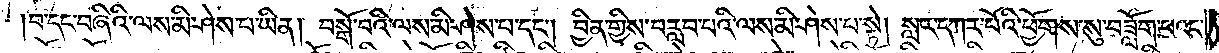བ་དང་བཞིའི་ལས་མི་ཤེས་པ་ཡིན། བསྒོ་བའི་ལས་མི་ཤེས་པ་དང༌། བྱིན་གྱིས་བརླབ་པའི་ལས་མི་ཤེས་པ་སྟེ། སླར་དཀར་པོའི་ཕྱོགས་སུ་བཟློག་པའང་
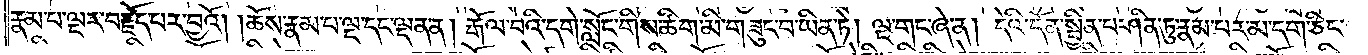རྣམ་པ་ལྔར་བརྗོད་པར་བྱའོ། །ཆོས་རྣམ་པ་ལྔ་དང་ལྡན་ན། རྒོལ་བའི་དགེ་སློང་གིས་ཚིག་མི་གཟུང་བ་ཡིན་ཏེ། ལྔ་གང་ཞེ་ན། དེའི་དོན་སྦྱིན་པ་ཤིན་ཏུ་རྣམ་པར་མ་དག་ཅིང་
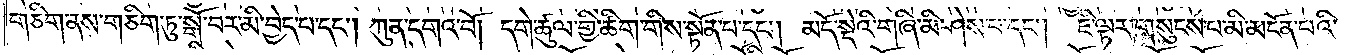གཅིག་ནས་གཅིག་ཏུ་སྒོ་བར་མི་བྱེད་པ་དང༌། ཀུན་དགའ་བོ། དགེ་ཚུལ་གྱི་ཚིག་གིས་སྟོན་པ་དང༌། མདོ་སྡེའི་གཞི་མི་ཤེས་པ་དང༌། ཇི་ལྟར་གསུངས་པ་མི་མངོན་པའི་
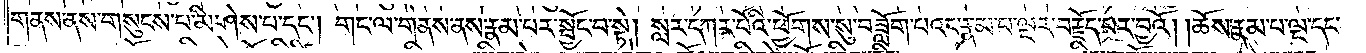གནས་ནས་གསུངས་པ་མི་ཤེས་པ་དང༌། གང་ལ་གནས་ནས་རྣམ་པར་སྦྱོང་བ་སྟེ། སླར་དཀར་པོའི་ཕྱོགས་སུ་བཟློག་པའང་རྣམ་པ་ལྔར་བརྗོད་པར་བྱའོ། །ཆོས་རྣམ་པ་ལྔ་དང་
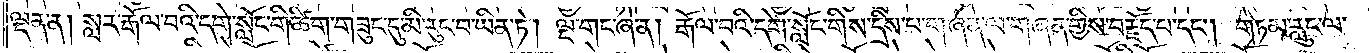ལྡན་ན། སླར་རྒོལ་བའི་དགེ་སློང་གི་ཚིག་གཟུང་དུ་མི་རུང་བ་ཡིན་ཏེ། ལྔ་གང་ཞེ་ན། རྒོལ་བའི་དགེ་སློང་གིས་དྲིས་པ་གཞན་ལ་གཞན་གྱིས་བརྗོད་པ་དང༌། གཏམ་རླུང་ལ་
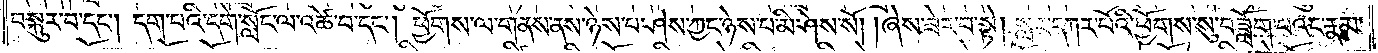བསྐུར་བ་དང༌། དག་པའི་དགེ་སློང་ལ་འཚེ་བ་དང༌། ཕྱོགས་ལ་གནས་ནས་ཉེས་པ་ཤེས་ཀྱང་ཉེས་པ་མི་ཤེས་སོ། །ཞེས་ཟེར་བ་སྟེ། སླར་དཀར་པོའི་ཕྱོགས་སུ་བཟློག་པའང་རྣམ་
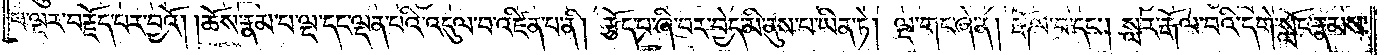པ་ལྔར་བརྗོད་པར་བྱའོ། །ཆོས་རྣམ་པ་ལྔ་དང་ལྡན་པའི་འདུལ་བ་འཛིན་པ་ནི། རྩོད་པ་ཞི་བར་བྱེད་མི་ནུས་པ་ཡིན་ཏེ། ལྔ་གང་ཞེ་ན། རྒོལ་བ་དང༌། སླར་རྒོལ་བའི་དགེ་སློང་རྣམས་
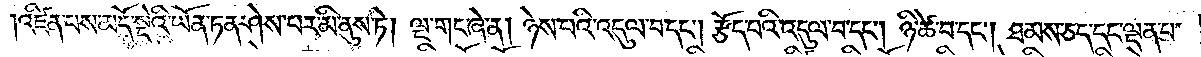འཛིན་པས་མདོ་སྡེའི་ཡོན་ཏན་ཤེས་པར་མི་ནུས་ཏེ། ལྔ་གང་ཞེ་ན། ཉེས་པའི་འདུལ་བ་དང༌། རྩོད་པའི་འདུལ་བ་དང༌། ཉི་ཚེ་བ་དང༌། ཐམས་ཅད་དང་ལྡན་པ་
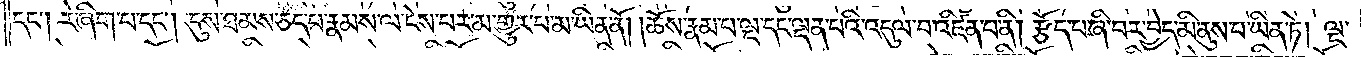དང༌། རེ་ཞིག་པ་དང༌། དུས་ཐམས་ཅད་པ་རྣམས་ལ་ངེས་པར་མ་གྱུར་པ་ཡིན་ནོ། །ཆོས་རྣམ་པ་ལྔ་དང་ལྡན་པའི་འདུལ་བ་འཛིན་པ་ནི། རྩོད་པ་ཞི་བར་བྱེད་མི་ནུས་པ་ཡིན་ཏེ། ལྔ་
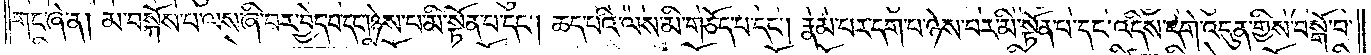གང་ཞེ་ན། མ་བསྐོས་པ་ལས་ཞི་བར་བྱེད་པ་དང༌། ཉེས་པ་མི་སྟོན་པ་དང༌། ཆད་པའི་ལས་མི་གཅོད་པ་དང༌། རྣམ་པར་དག་པ་ཉེས་པར་མི་སྟོན་པ་དང་འདིས་དགེ་འདུན་གྱིས་བསྒོ་བ་
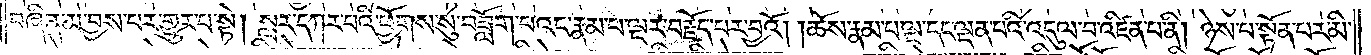བཞིན་མ་བྱས་པར་གྱུར་པ་སྟེ། སླར་དཀར་པའི་ཕྱོགས་སུ་བཟློག་པའང་རྣམ་པ་ལྔར་བརྗོད་པར་བྱའོ། །ཆོས་རྣམ་པ་ལྔ་དང་ལྡན་པའི་འདུལ་བ་འཛིན་པ་ནི། ཉེས་པ་སྟོན་པར་མི་
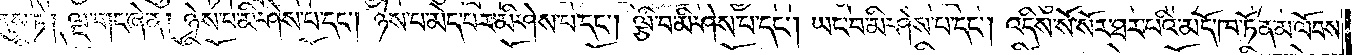ནུས་ཏེ། ལྔ་གང་ཞེ་ན། ཉེས་པ་མི་ཤེས་པ་དང༌། ཉེས་པ་མེད་པར་མི་ཤེས་པ་དང༌། ལྕི་བ་མི་ཤེས་པ་དང༌། ཡང་བ་མི་ཤེས་པ་དང༌། འདིས་སོ་སོར་ཐར་པའི་མདོ་ཁ་ཏོན་མ་ལོབས་
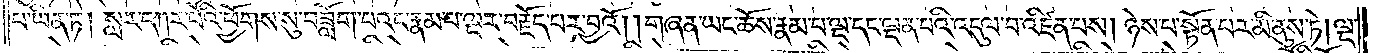པ་ཡིན་ཏེ། སླར་དཀར་པོའི་ཕྱོགས་སུ་བཟློག་པའང་རྣམ་པ་ལྔར་བརྗོད་པར་བྱའོ། །གཞན་ཡང་ཆོས་རྣམ་པ་ལྔ་དང་ལྡན་པའི་འདུལ་བ་འཛིན་པས། ཉེས་པ་སྟོན་པར་མི་ནུས་ཏེ། ལྔ་
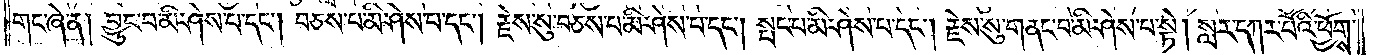གང་ཞེ་ན། བྱུང་བ་མི་ཤེས་པ་དང༌། བཅས་པ་མི་ཤེས་པ་དང༌། རྗེས་སུ་བཅས་པ་མི་ཤེས་པ་དང༌། སྤང་པ་མི་ཤེས་པ་དང༌། རྗེས་སུ་གནང་བ་མི་ཤེས་པ་སྟེ། སླར་དཀར་པོའི་ཕྱོགས་
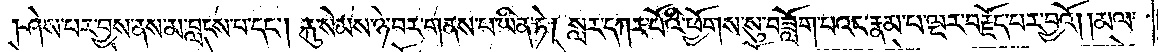ཤེས་པར་བྱས་ནས་མ་བླངས་པ་དང༌། རྐུ་སེམས་ཉེ་བར་གནས་པ་ཡིན་ཏེ། སླར་དཀར་པོའི་ཕྱོགས་སུ་བཟློག་པའང་རྣམ་པ་ལྔར་བརྗོད་པར་བྱའོ། །མལ་
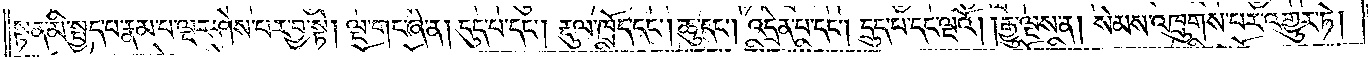སྟན་མི་སྤྱད་པ་རྣམ་པ་ལྔར་ཤེས་པར་བྱ་སྟེ། ལྔ་གང་ཞེ་ན། དུད་པ་དང༌། རྡུལ་ཁྲོད་དང༌། ཆུ་དང༌། འདྲེན་པ་དང༌། དྲུད་པ་དང་ལྔའོ། །རྒྱུ་ལྔས་ན། སེམས་འཁྲུགས་པར་འགྱུར་ཏེ།
